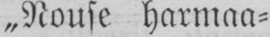˶Nouse harmaa-
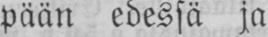pään edessä ja
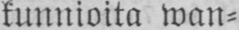kunnioita wan-
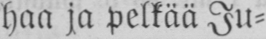haa ja pelkää Ju-
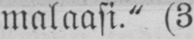malaasi." (3
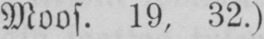Moos. 19, 32.)
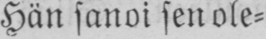Hän sanoi sen ole-
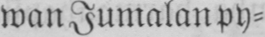wan Jumalanpy-
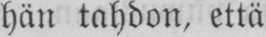hän tahdon, että
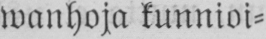wanhoja kunnioi-
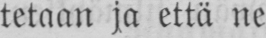tetaan ja että ne
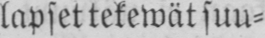lapset tekewät suu-
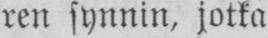ren synnin, jotka
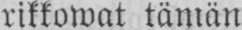rikkowat tämän
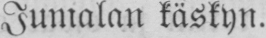Jumalan käskyn.
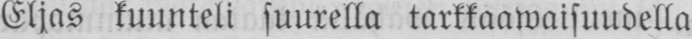Eljas kuunteli suurella tarkkaawaisuudella
